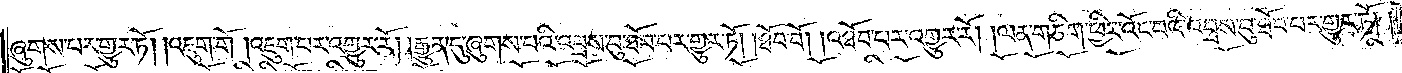ཞུགས་པར་གྱུར་ཏོ། །འཇུག་གོ །འཇུག་པར་འགྱུར་རོ། །རྒྱུན་དུ་ཞུགས་པའི་འབྲས་བུ་ཐོབ་པར་གྱུར་ཏོ། །ཐོབ་བོ། འཐོབ་པར་འགྱུར་རོ། །ལན་གཅིག་ཕྱིར་འོང་བའི་འབྲས་བུ་ཐོབ་པར་གྱུར་ཏོ། །
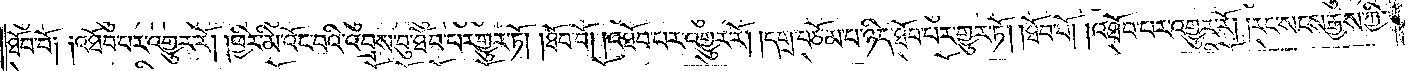ཐོབ་བོ༑ ༑འཐོབ་པར་འགྱུར་རོ། །ཕྱིར་མི་འོང་བའི་འབྲས་བུ་ཐོབ་པར་གྱུར་ཏོ། །ཐོབ་བོ། འཐོབ་པར་འགྱུར་རོ། །དགྲ་བཅོམ་པ་ཉིད་ཐོབ་པར་གྱུར་ཏོ། །ཐོབ་བོ། འཐོབ་པར་འགྱུར་རོ། །རང་སངས་རྒྱས་ཀྱི་
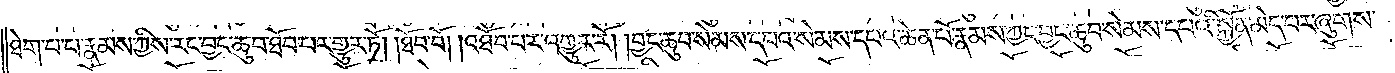ཐེག་པ་པ་རྣམས་ཀྱིས་རང་བྱང་ཆུབ་ཐོབ་པར་གྱུར་ཏོ། །ཐོབ་བོ། འཐོབ་པར་འགྱུར་རོ། །བྱང་ཆུབ་སེམས་དཔའ་སེམས་དཔའ་ཆེན་པོ་རྣམས་ཀྱང་བྱང་ཆུབ་སེམས་དཔའི་སྐྱོན་མེད་པར་ཞུགས་
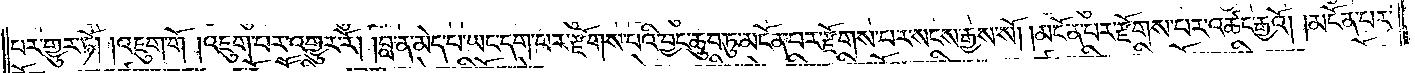པར་གྱུར་ཏོ། །འཇུག་གོ །འཇུག་པར་འགྱུར་རོ། །བླ་ན་མེད་པ་ཡང་དག་པར་རྫོགས་པའི་བྱང་ཆུབ་ཏུ་མངོན་པར་རྫོགས་པར་སངས་རྒྱས་སོ། །མངོན་པར་རྫོགས་པར་འཚང་རྒྱའོ། །མངོན་པར་
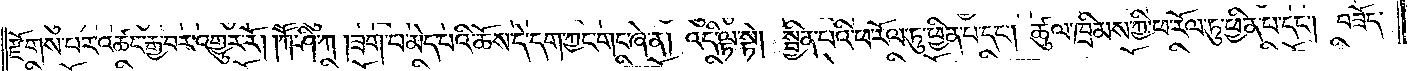རྫོགས་པར་འཚང་རྒྱ་བར་འགྱུར་རོ། །ཀཽ་ཤི་ཀ །ཟག་པ་མེད་པའི་ཆོས་དེ་དག་ཀྱང་གང་ཞེ་ན། འདི་ལྟ་སྟེ། སྦྱིན་པའི་ཕ་རོལ་ཏུ་ཕྱིན་པ་དང༌། ཚུལ་ཁྲིམས་ཀྱི་ཕ་རོལ་ཏུ་ཕྱིན་པ་དང༌། བཟོད་
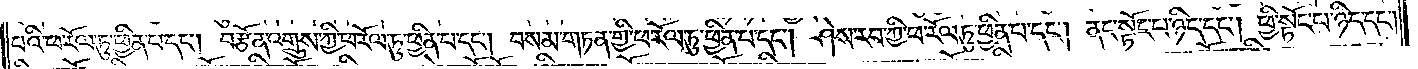པའི་ཕ་རོལ་ཏུ་ཕྱིན་པ་དང༌། །བརྩོན་འགྲུས་ཀྱི་ཕ་རོལ་ཏུ་ཕྱིན་པ་དང༌། བསམ་གཏན་གྱི་ཕ་རོལ་ཏུ་ཕྱིན་པ་དང༌། ཤེས་རབ་ཀྱི་ཕ་རོལ་ཏུ་ཕྱིན་པ་དང༌། ནང་སྟོང་པ་ཉིད་དང༌། ཕྱི་སྟོང་པ་ཉིད་དང༌།
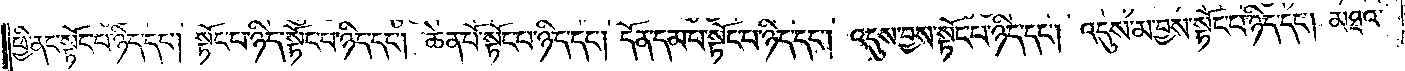ཕྱི་ནང་སྟོང་པ་ཉིད་དང༌། སྟོང་པ་ཉིད་སྟོང་པ་ཉིད་དང༌། ཆེན་པོ་སྟོང་པ་ཉིད་དང༌། དོན་དམ་པ་སྟོང་པ་ཉིད་དང༌། འདུས་བྱས་སྟོང་པ་ཉིད་དང༌། འདུས་མ་བྱས་སྟོང་པ་ཉིད་དང༌། མཐའ་
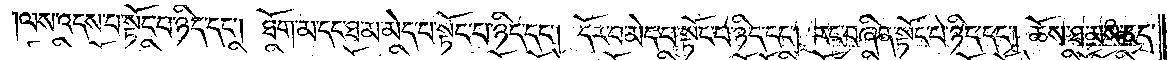ལས་འདས་པ་སྟོང་པ་ཉིད་དང༌། ཐོག་མ་དང་ཐ་མ་མེད་པ་སྟོང་པ་ཉིད་དང༌། དོར་བ་མེད་པ་སྟོང་པ་ཉིད་དང༌། རང་བཞིན་སྟོང་པ་ཉིད་དང༌། ཆོས་ཐམས་ཅད་
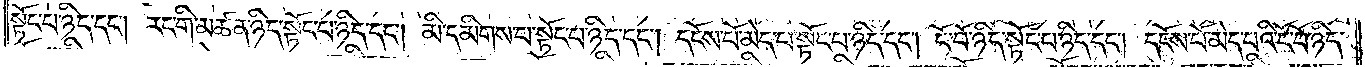སྟོང་པ་ཉིད་དང༌། རང་གི་མཚན་ཉིད་སྟོང་པ་ཉིད་དང༌། མི་དམིགས་པ་སྟོང་པ་ཉིད་དང༌། དངོས་པོ་མེད་པ་སྟོང་པ་ཉིད་དང༌། ངོ་བོ་ཉིད་སྟོང་པ་ཉིད་དང༌། དངོས་པོ་མེད་པའི་ངོ་བོ་ཉིད་
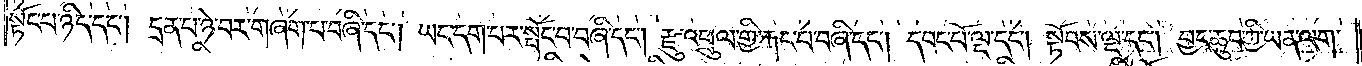སྟོང་པ་ཉིད་དང༌། དྲན་པ་ཉེ་བར་གཞག་པ་བཞི་དང༌། ཡང་དག་པར་སྤོང་བ་བཞི་དང༌། རྫུ་འཕྲུལ་གྱི་རྐང་པ་བཞི་དང༌། དབང་པོ་ལྔ་དང༌། སྟོབས་ལྔ་དང༌། བྱང་ཆུབ་ཀྱི་ཡན་ལག་
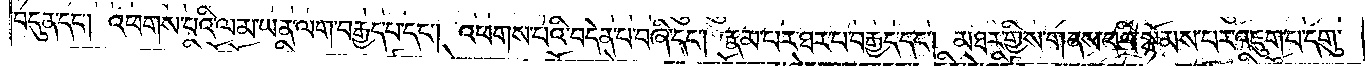བདུན་དང༌། འཕགས་པའི་ལམ་ཡན་ལག་བརྒྱད་པ་དང༌། འཕགས་པའི་བདེན་པ་བཞི་དང༌། རྣམ་པར་ཐར་པ་བརྒྱད་དང༌། མཐར་གྱིས་གནས་པའི་སྙོམས་པར་འཇུག་པ་དགུ་
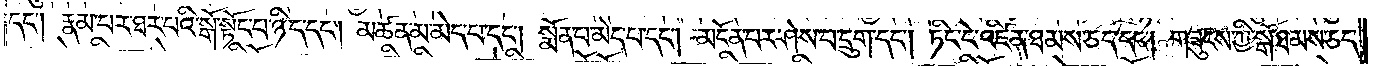དང༌། རྣམ་པར་ཐར་པའི་སྒོ་སྟོང་པ་ཉིད་དང༌། མཚན་མ་མེད་པ་དང༌། སྨོན་པ་མེད་པ་དང༌། མངོན་པར་ཤེས་པ་དྲུག་དང༌། ཏིང་ངེ་འཛིན་ཐམས་ཅད་དང༌། གཟུངས་ཀྱི་སྒོ་ཐམས་ཅད་
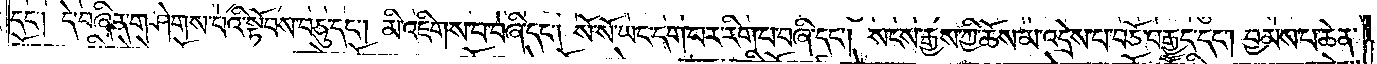དང༌། དེ་བཞིན་གཤེགས་པའི་སྟོབས་བཅུ་དང༌། མི་འཇིགས་པ་བཞི་དང༌། སོ་སོ་ཡང་དག་པར་རིག་པ་བཞི་དང༌། སངས་རྒྱས་ཀྱི་ཆོས་མ་འདྲེས་པ་བཅོ་བརྒྱད་དང༌། བྱམས་པ་ཆེན་
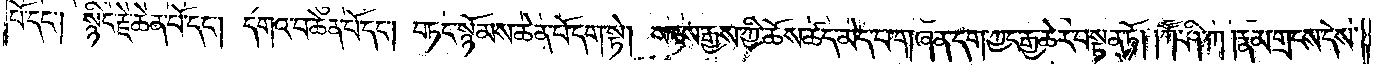པོ་དང༌། སྙིང་རྗེ་ཆེན་པོ་དང༌། དགའ་བ་ཆེན་པོ་དང༌། བཏང་སྙོམས་ཆེན་པོ་དག་སྟེ། སངས་རྒྱས་ཀྱི་ཆོས་ཚད་མེད་པ་གཞན་དག་ཀྱང་རྒྱ་ཆར་བསྟན་ཏོ། །ཀཽ་ཤི་ཀ །རྣམ་གྲངས་དེས་
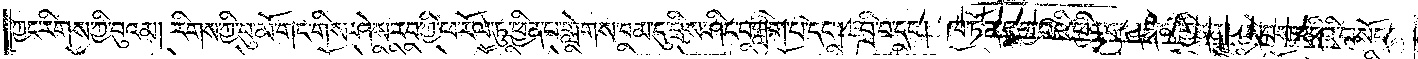ཀྱང་རིགས་ཀྱི་བུའམ། རིགས་ཀྱི་བུ་མོ་གང་གིས་ཤེས་རབ་ཀྱི་ཕ་རོལ་ཏུ་ཕྱིན་པ་གླེགས་བམ་དུ་བྲིས་ཤིང་བཀླག་པ་དང༌། བྲི་བ་དང༌། ཁ་ཏོན་དུ་བྱ་བའི་ཕྱིར་གཞན་ལ་བྱིན་ན། དེ་བས་འདིའི་བསོད་
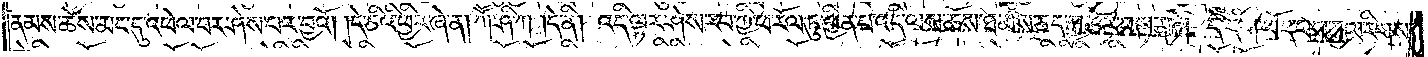ནམས་ཆེས་མང་དུ་འཕེལ་བར་ཤེས་པར་བྱའོ། །དེ་ཅིའི་ཕྱིར་ཞེ་ན། ཀཽ་ཤི་ཀ །དེ་ནི། འདི་ལྟར་ཤེས་རབ་ཀྱི་ཕ་རོལ་ཏུ་ཕྱིན་པ་འདི་ལས་ཆོས་ཐམས་ཅད་རྒྱ་ཆེར་བསྟན་ཏེ། དེ་དག་ཡོད་པས་རྒྱལ་རིགས་
